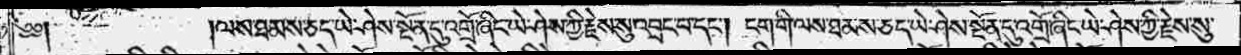༄༅༎ལས་ཐམས་ཅད་ཡེ་ཤེས་སྔོན་དུ་འགྲོ་ཞིང་ཡེ་ཤེས་ཀྱི་རྗེས་སུ་འབྲང་བ་དང༌། ངག་གི་ལས་ཐམས་ཅད་ཡེ་ཤེས་སྔོན་དུ་འགྲོ་ཞིང་ཡེ་ཤེས་ཀྱི་རྗེས་སུ་
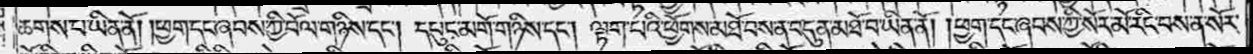ཆགས་པ་ཡིན་ནོ། །ཕྱག་དང་ཞབས་ཀྱི་བོལ་གཉིས་དང༌། དཔུང་མགོ་གཉིས་དང༌། ལྟག་པའི་ཕྱོགས་མཐོ་བས་ན་བདུན་མཐོ་བ་ཡིན་ནོ། །ཕྱག་དང་ཞབས་ཀྱི་སོར་མོ་རིང་བས་ན་སོར་
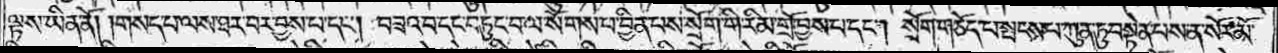ལྟས་ཡིན་ནོ། །གསད་པ་ལས་ཐར་བར་བྱས་པ་དང༌། བཟའ་བ་དང་བཏུང་བ་ལ་སོགས་པ་བྱིན་པས་སྲོག་གི་རིམ་གྲོ་བྱས་པ་དང༌། སྲོག་གཅོད་པ་སྤངས་པ་ཀུན་ཏུ་བསྟེན་པས་ན་སོར་མོ་
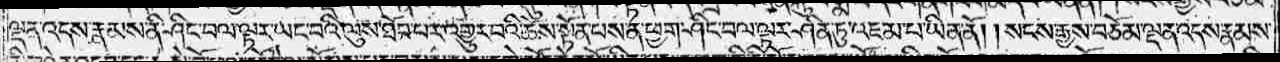ལྡན་འདས་རྣམས་ནི་ཤིང་བལ་ལྟར་ཡང་བའི་ལུས་ཐོབ་པར་འགྱུར་བའི་ཆོས་སྟོན་པས་ན་ཕྱག་ཤིང་བལ་ལྟར་ཤིན་ཏུ་འཇམ་པ་ཡིན་ནོ། །སངས་རྒྱས་བཅོམ་ལྡན་འདས་རྣམས་
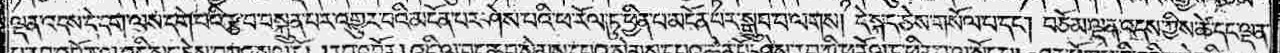ལྡན་འདས་དེ་དག་ལས་དགེ་བའི་རྩ་བ་བསྐྲུན་པར་འགྱུར་བའི་མངོན་པར་ཤེས་པའི་ཕ་རོལ་ཏུ་ཕྱིན་པ་མངོན་པར་སྒྲུབ་པ་ལགས། དེ་སྐད་ཅེས་གསོལ་པ་དང༌། བཅོམ་ལྡན་འདས་ཀྱིས་ཚེ་དང་ལྡན་
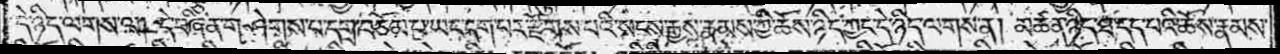དེ་ཉིད་ལགས་ལ། དེ་བཞིན་གཤེགས་པ་དགྲ་བཅོམ་པ་ཡང་དག་པར་རྫོགས་པའི་སངས་རྒྱས་རྣམས་ཀྱི་ཆོས་ཉིད་ཀྱང་དེ་ཉིད་ལགས་ན། མཚན་ཉིད་ཐ་དད་པའི་ཆོས་རྣམས་
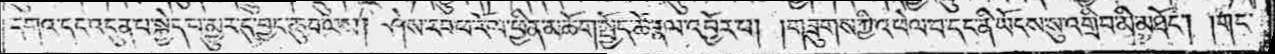དགའ་དང་འདུན་པ་སྐྱེད་པ་མྱུར་དུ་བྱང་ཆུབ་ལས། ཤེས་རབ་ཕ་རོལ་ཕྱིན་མཆོག་སྤྱོད་ཚེ་རྣལ་འབྱོར་པ། །གཟུགས་ཀྱི་འཕེལ་བ་དང་ནི་ཡོངས་སུ་འགྲིབ་མི་མཐོང༌། །གང་
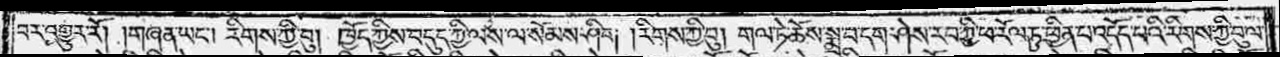བར་འགྱུར་རོ། །གཞན་ཡང༌། རིགས་ཀྱི་བུ། ཁྱོད་ཀྱིས་བདུད་ཀྱི་ལས་ལ་སོམས་ཤིག །རིགས་ཀྱི་བུ། གལ་ཏེ་ཆོས་སྨྲ་བ་དག་ཤེས་རབ་ཀྱི་ཕ་རོལ་ཏུ་ཕྱིན་པ་འདོད་པའི་རིགས་ཀྱི་བུ་ལ་
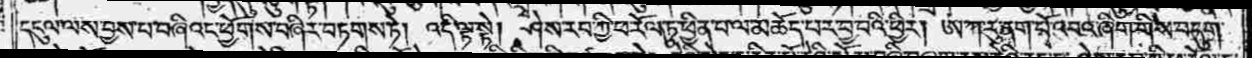དངུལ་ལས་བྱས་པ་བཞིའང་ཕྱོགས་བཞིར་བཏགས་ཏེ། འདི་ལྟ་སྟེ། ཤེས་རབ་ཀྱི་ཕ་རོལ་ཏུ་ཕྱིན་པ་ལ་མཆོད་པར་བྱ་བའི་ཕྱིར། ཨ་ཀ་རུ་ནག་པོ་འབའ་ཞིག་གིས་བདུག་
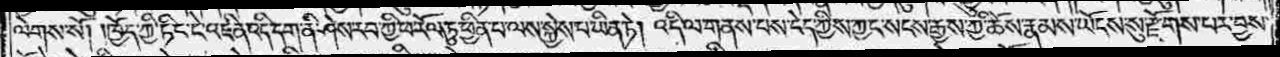ལེགས་སོ། །ཁྱོད་ཀྱི་ཏིང་ངེ་འཛིན་འདི་དག་ནི་ཤེས་རབ་ཀྱི་ཕ་རོལ་ཏུ་ཕྱིན་པ་ལས་སྐྱེས་པ་ཡིན་ཏེ། འདི་ལ་གནས་པས་ངེད་ཀྱིས་ཀྱང་སངས་རྒྱས་ཀྱི་ཆོས་རྣམས་ཡོངས་སུ་རྫོགས་པར་བྱས་
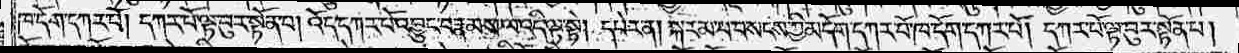ཁ་དོག་དཀར་པོ། དཀར་པོ་ལྟ་བུར་སྟོན་པ། འོད་དཀར་པོ་འབྱུང་བ་རྣམས་ལ་འདི་ལྟ་སྟེ། དཔེར་ན། སྐར་མ་བ་བ་སངས་ཀྱི་མདོག་དཀར་པོ་ཁ་དོག་དཀར་པོ། དཀར་པོ་ལྟ་བུར་སྟོན་པ།
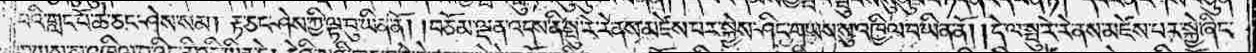པའི་གླང་པོ་ཆེ་ཅང་ཤེས་སམ། རྟ་ཅང་ཤེས་ཀྱི་ལྟ་བུ་ཡིན་ནོ། །བཅོམ་ལྡན་འདས་ནི་སྤུ་རེ་རེ་ནས་མཛེས་པར་སྐྱེས་ཤིང་གཡས་སུ་འཁྱིལ་བ་ཡིན་ནོ། །དེ་ལ་སྤུ་རེ་རེ་ནས་མཛེས་པར་སྐྱེ་ཞིང་
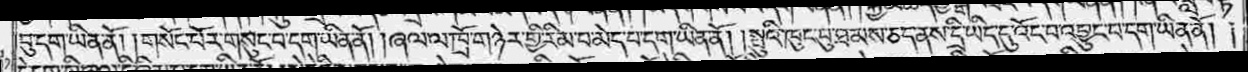བུ་དག་ཡིན་ནོ། །གསོང་པོར་གསུང་བ་དག་ཡིན་ནོ། །ཞལ་ལ་ཁྲོ་གཉེར་གྱི་རིམ་པ་མེད་པ་དག་ཡིན་ནོ། །སྤུའི་ཁུང་བུ་ཐམས་ཅད་ནས་དྲི་ཡིད་དུ་འོང་བ་འབྱུང་བ་དག་ཡིན་ནོ། །
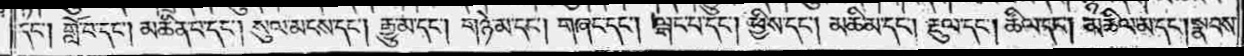དང༌། གློ་བ་དང༌། མཆིན་པ་དང༌། སུལ་མངས་དང༌། རྒྱུ་མ་དང༌། གཉེ་མ་དང༌། གཞང་དང༌། ལྒང་པ་དང༌། ཕྱི་ས་དང༌། མཆི་མ་དང༌། རྔུལ་དང༌། ཚིལ་དང༌། མཆིལ་མ་དང༌། སྣབས་
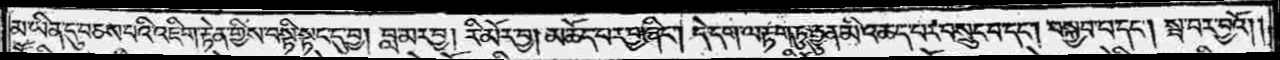མ་ཡིན་དུ་བཅས་པའི་འཇིག་རྟེན་གྱིས་བསྟི་སྟང་དུ་བྱ། བླ་མར་བྱ། རི་མོར་བྱ། མཆོད་པར་བྱ་ཞིང༌། དེ་དག་ལ་རྟག་ཏུ་རྒྱུན་མི་འཆད་པར་བསྲུང་བ་དང༌། བསྐྱབ་པ་དང༌། སྦ་བར་བྱའོ། །
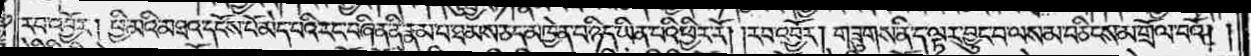རབ་འབྱོར། ཕྱི་མའི་མཐའ་དངོས་པོ་མེད་པའི་རང་བཞིན་ནི་རྣམ་པ་ཐམས་ཅད་མཁྱེན་པ་ཉིད་ཡིན་པའི་ཕྱིར་རོ། །རབ་འབྱོར། གཟུགས་ནི་ད་ལྟར་བྱུང་བ་ལས་མ་བཅིངས་མ་གྲོལ་བའོ། །
